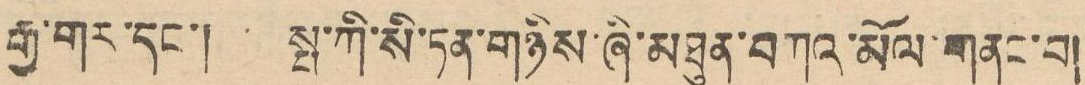རྒྱ་གར་དང་། སྤ་ཀི་སི་ཏན་གཉིས་ཞི་མཐུན་བཀའ་མོལ་གནང་བ།
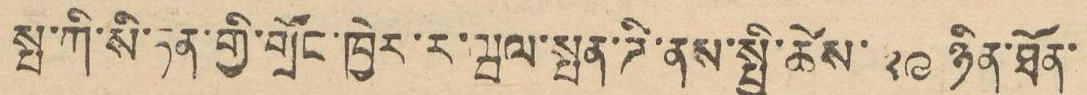སྤ་ཀི་སི་ཏན་གྱི་གྲོང་ཁྱེར་ར་ཝལ་སྤན་ཌི་ནས་སྤྱི་ཚེས་ ༢༩ ཉིན་ཐོན་
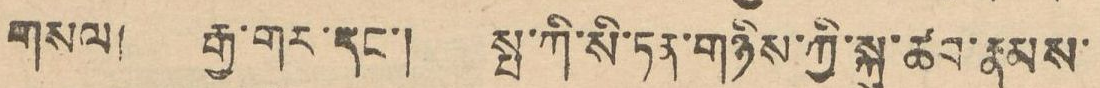གསལ། རྒྱ་གར་དང་། སྤ་ཀི་སི་ཏན་གཉིས་ཀྱི་སྐུ་ཚབ་རྣམས་
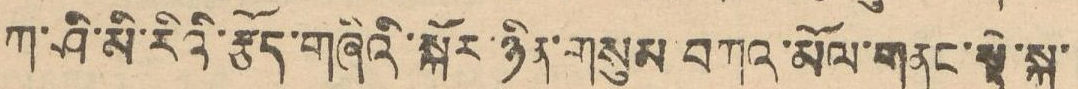ཀ་ཤི་མི་རིའི་རྩོད་གཞིའི་སྐོར་ཉིན་གསུམ བཀའ་མོལ་གནང་སྟེ་སྐུ་
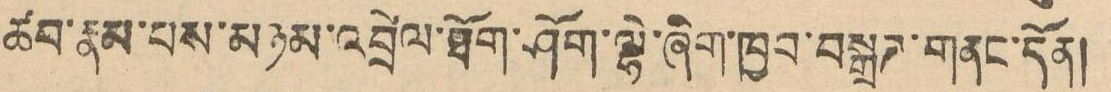ཚབ་རྣམ་པས་མཉམ་འབྲེལ་ཐོག་ཤོག་ལྷེ་ཞིག་ཁྱབ་བསྒྲཊ་གནང་དོན།
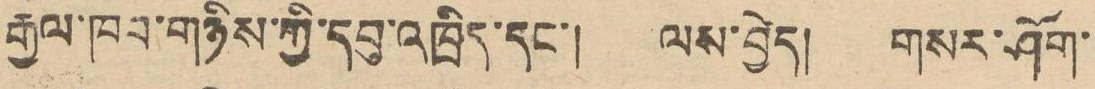རྒྱལ་ཁབ་གཉིས་ཀྱི་དབུ་འཁྲིད་དང་། ལས་བྱེད། གསར་ཤོག་
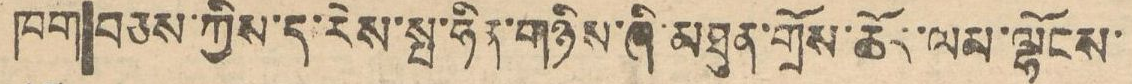ཁག་བཅས་ཀྱིས་ད་རེས་སྤ་ཧིན་གཉིས་ཞི་མཐུན་གྲོས་ཆོར་ལམ་ལྷོངས་
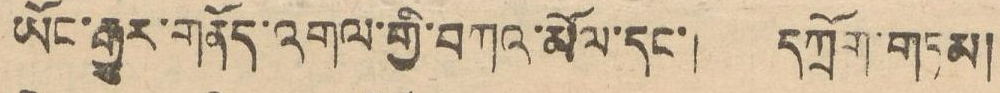ཡོང་རྒྱར་གནོད་འགལ་གྱི་བཀའ་མོལ་དང་། དཀྲོག་གཏམ།
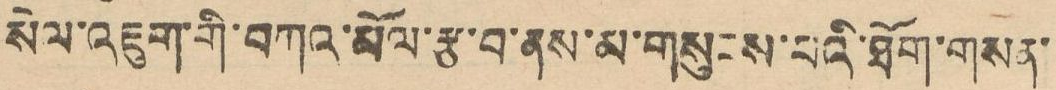སེལ་འཇུག་གི་བཀའ་མོལ་རྩ་བ་ནས་མ་གསུངས་པའི་ཐོན་གསན་
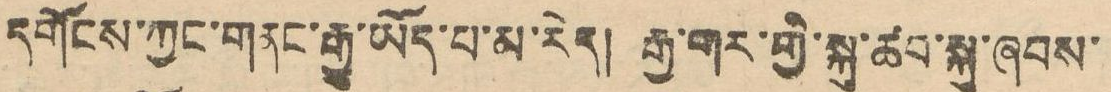དགོངས་ཀྱང་གནང་རྒྱུ་ཡོད་པ་མ་རེད། རྒྱ་གར་གྱི་སྐུ་ཚབ་སྐུ་ཞབས་
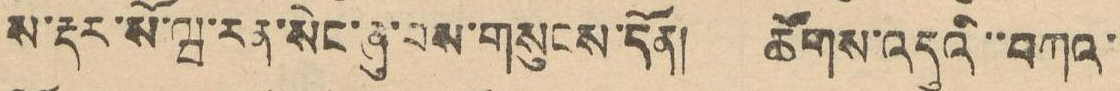ས་རྡར་སོ་ཝ་རན་སེང་ཞུ་བས་གསུངས་དོན། ཚོགས་འདུའི་་བཀའ་
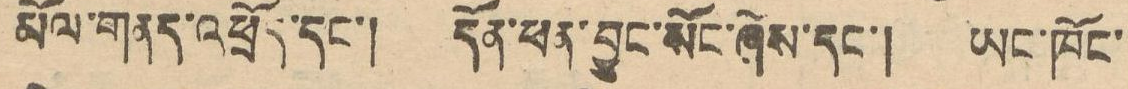མོལ་གནད་འཕྲོད་དང་། དོན་ཕན་བྱུང་སོང་ཞེས་དང་། ཡང་ཁོང་
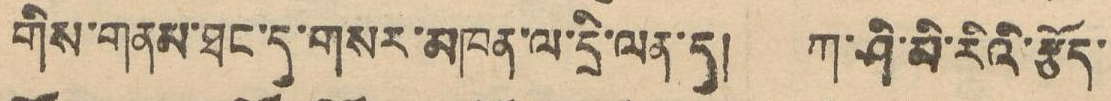གིས་གནམ་ཐང་དུ་གསར་མཁན་ལ་དྲི་ལན་དུ། ཀ་ཤི་མི་རིའི་རྩོད་
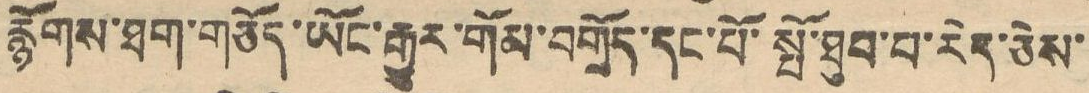རྙོགས་ཐག་གཅོད་ཡོང་རྒྱུར་གོམ་བགྲོད་དང་པོ་སྤོ་ཐུབ་པ་རེད་ཅེས་
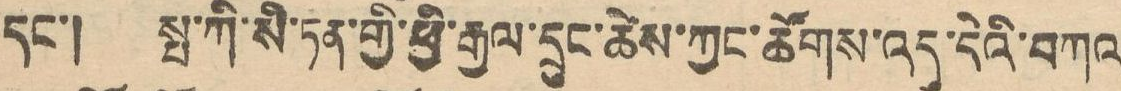དང་། སྤ་ཀི་སི་ཏན་གྱི་ཕྱི་རྒྱལ་དྲུང་ཆེས་ཀྱང་ཚོགས་འདུ་དེའི་བཀའ
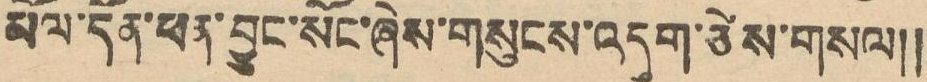མོལ་དོན་ཕན་བྱུང་སོང་ཞེས་གསུངས་འདུག་ཅེས་གསལ།།
